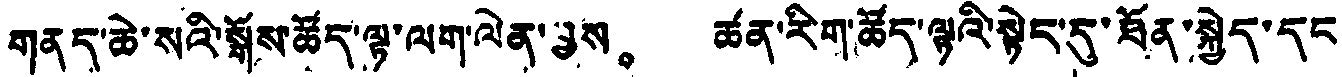གནད་ཆེ་སའི་སྒོས་ཚོད་ལྟ་ལག་ལེན་བྱས。 ཚན་རིག་ཚོད་ལྟའི་སྟེང་དུ་ཐོན་སྐྱེད་དང
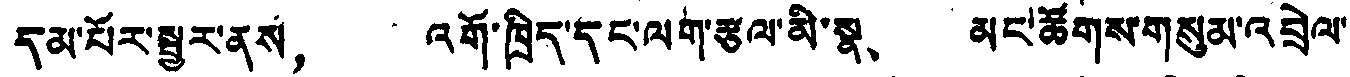དམ་པོར་སྦྱར་ནས， འགོ་ཁྲིད་དང་ལག་རྩལ་མི་སྣ、 མང་ཚོགས་གསུམ་འབྲེལ་
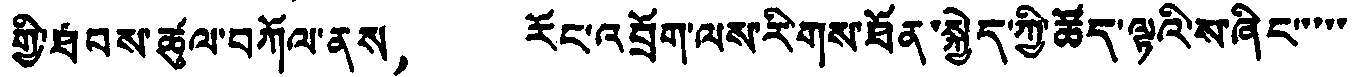གྱི་ཐབས་ཚུལ་བཀོལ་ནས， རོང་འབྲོག་ལས་རིགས་ཐོན་སྐྱེད་ཀྱི་ཚོད་ལྟའི་ས་ཞིང་་་་་
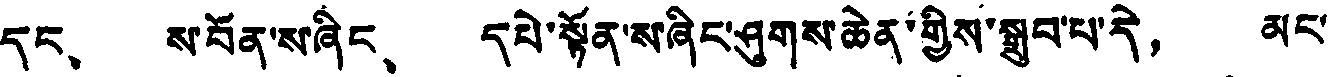དང、 ས་བོན་ས་ཞིང、 དཔེ་སྟོན་སཞིང་ཤུགས་ཆེན་གྱིས་སྒྲུབ་པ་དེ， མང་
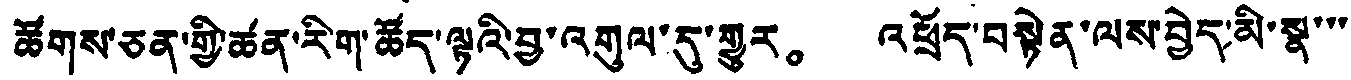ཚོགས་ཅན་གྱི་ཚན་རིག་ཚོད་ལྟའི་བྱ་འགུལ་དུ་གྱུར。 འཕྲོད་བསྟེན་ལས་བྱེད་མི་སྣ་་་
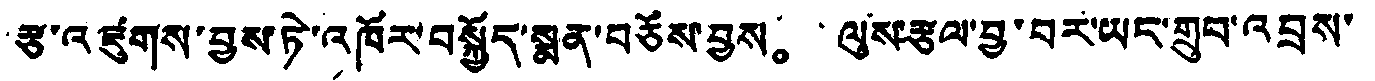རྩ་འཛུགས་བྱས་ཏེ་འཁོར་བསྐྱོད་སྨན་བཅོས་བྱས。 ལུས་རྩལ་བྱ་བར་ཡང་གྲུབ་འབྲས་
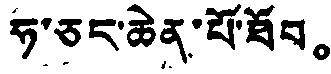ཧ་ཅང་ཆེན་པོ་ཐོབ。
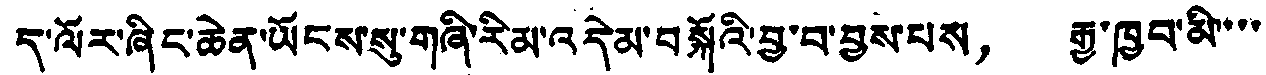ད་ལོར་ཞིང་ཆེན་ཡོངས་སུ་གཞི་རིམ་འདེམ་བསྐོའི་བྱ་བ་བྱས་པས， རྒྱ་ཁྱབ་མི་་་་
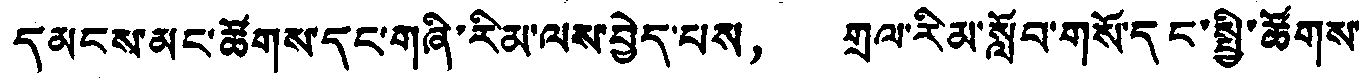དམངས་མང་ཚོགས་དང་གཞི་རིམ་ལས་བྱེད་པས， གྲལ་རིམ་སློབ་གསོ་དང་སྤྱི་ཚོགས་
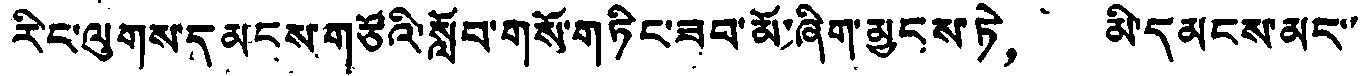རིང་ལུགས་དམངས་གཙོའི་སློབ་གསོ་གཏིང་ཟབ་མོ་ཞིག་མྱངས་ཏེ， མི་དམངས་མང་་
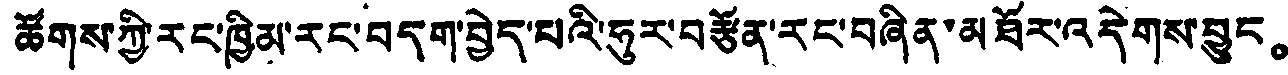ཚོགས་ཀྱི་རང་ཁྱིམ་རང་བདག་བྱེད་པའི་ཧུར་བརྩོན་རང་བཞིན་མཐོར་འདེགས་བྱུང。
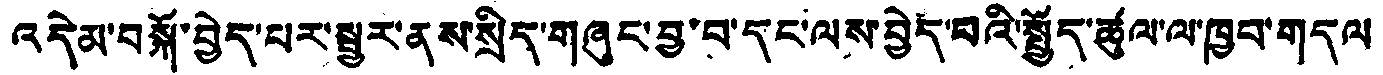འདེམ་བསྐོ་བྱེད་པར་སྦྱར་ནས་སྲིད་གཞུང་བྱ་བ་དང་ལས་བྱེད་པའི་སྤྱོད་ཚུལ་ལ་ཁྱབ་གདལ
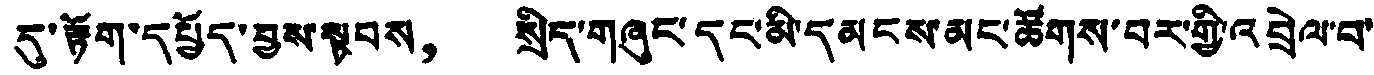དུ་རྟོག་དཔྱོད་བྱས་སྟབས， སྲིད་གཞུང་དང་མི་དམངས་མང་ཚོགས་བར་གྱི་འབྲེལ་བ་
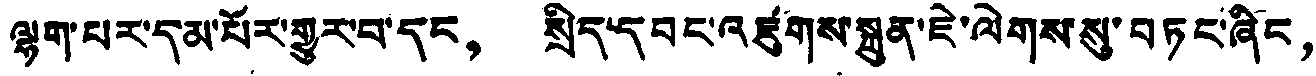ལྷག་པར་དམ་པོར་གྱུར་བ་དང， སྲིད་དབང་འཛུགས་སྐྲུན་ཇེ་ལེགས་སུ་བཏང་ཞིང，
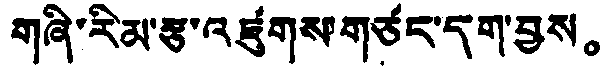གཞི་རིམ་རྩ་འཛུགས་གཙང་དག་བྱས。
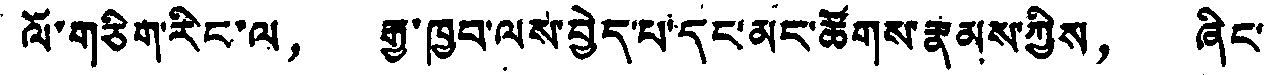ལོ་གཅིག་རིང་ལ， རྒྱ་ཁྱབ་ལས་བྱེད་པ་དང་མང་ཚོགས་རྣམས་ཀྱིས， ཞིང་
